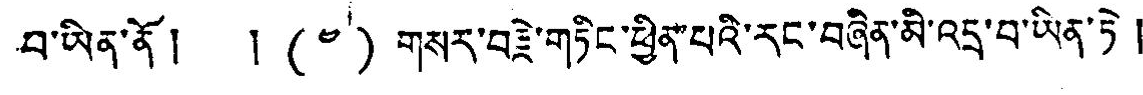བ་ཡིན་ནོ། ། (༤)གསར་བརྗེ་གཏིང་ཕྱིན་པའི་རང་བཞིན་མི་འདྲ་བ་ཡིན་ཏེ །
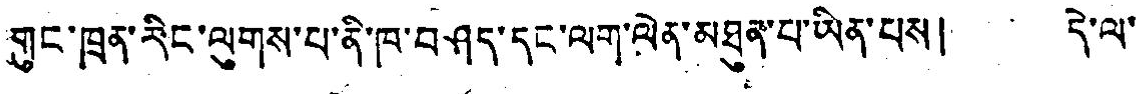གུང་ཁྲན་རིང་ལུགས་པ་ནི་ཁ་བཤད་དང་ལག་ལེན་མཐུན་པ་ཡིན་པས། དེ་ལ་
